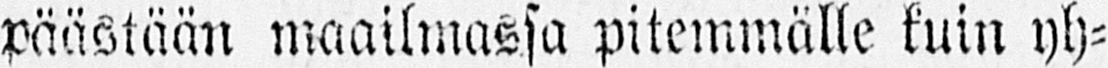päästään maailmassa pitemmälle kuin yh-
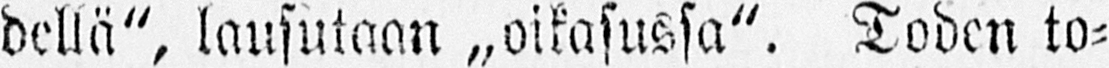dellä", lausutaan „oikasussa". Toden to-
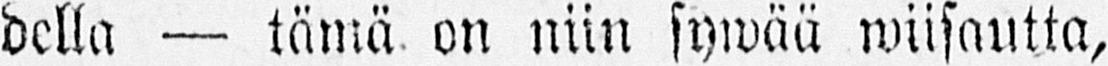della — tämä on niin sywää wiisautta,
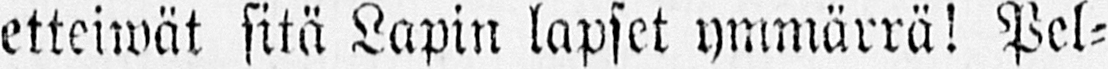etteiwät sitä Lapin lapset ymmärrä! Pel-
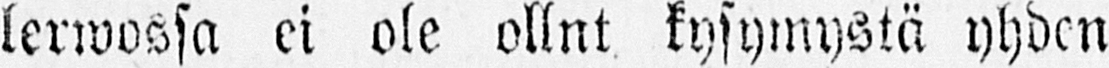lerwossa ei ole ollnt kysymystä yhden
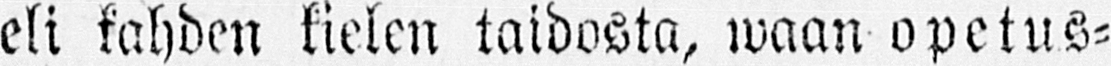eli kahden kielen taidosta, waan opetus-
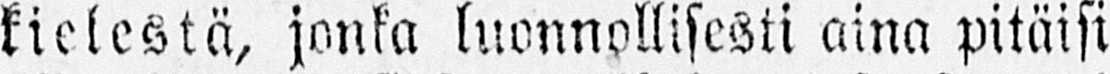kielestä, jonka luonnollisesti aina pitäisi
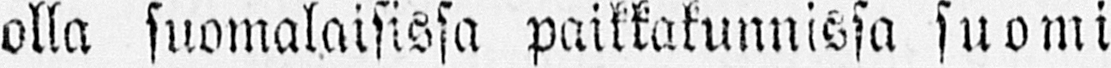olla suomalaisissa paikkakunnissa suomi
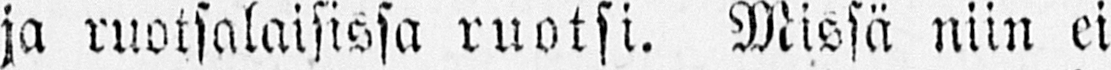ja ruotsalaisissa ruotsi. Missä niin ei
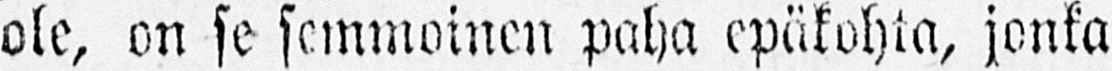ole, on se semmoinen paha epäkohta, jonka
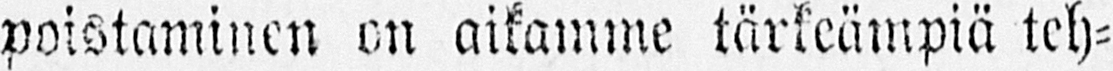poistaminen on aikamme tärkeämpiä teh-
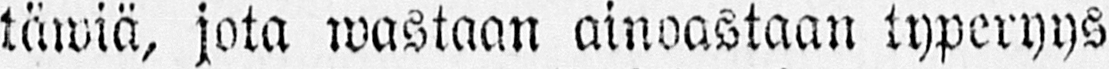täwiä, jota wastaan ainoastaan typeryys
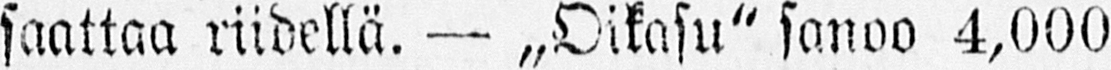saattaa riidellä. — „Oikasu" sanoo 4,000
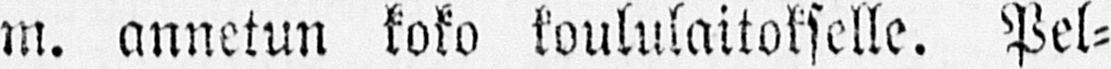m. annetun koko koululaitokselle. Pel-
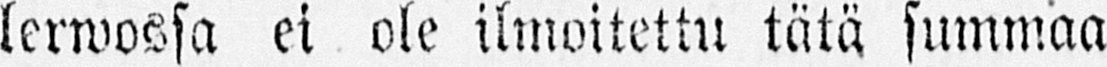lerwossa ei ole ilmoitettu tätä summaa
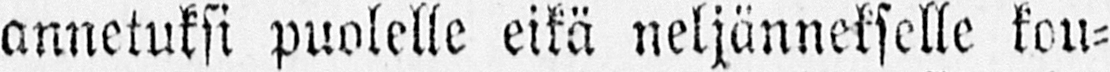annetuksi puolelle eikä neljännekselle kou-
